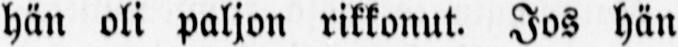hän oli paljon rikkonut. Jos hän
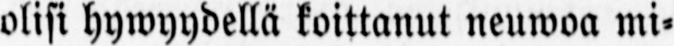olisi hywyydellä koittanut neuwoa mi-
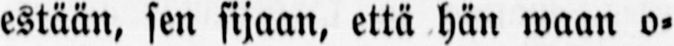estään, sen sijaan, että hän waan o-
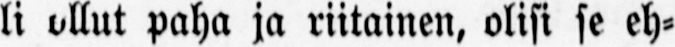li ollut paha ja riitainen, olisi se eh-
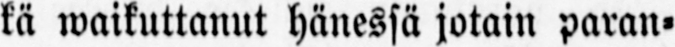kä waikuttanut hänessä jotain paran-
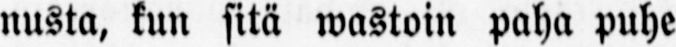nusta, kun sitä wastoin paha puhe
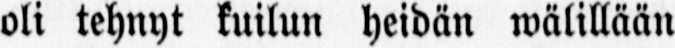oli tehnyt kuilun heidän wälillään
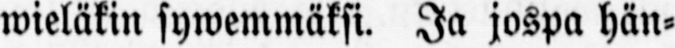wieläkin sywemmäksi. Ja jospa hän-
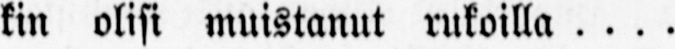kin olisi muistanut rukoilla ....
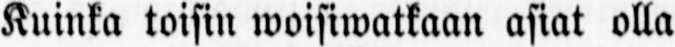Kuinka toisin woisiwatkaan asiat olla
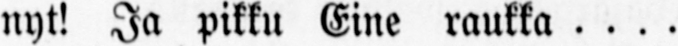nyt! Ja pikku Eine raukka ....
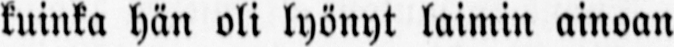kuinka hän oli lyönyt laimin ainoan
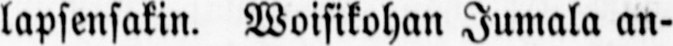lapsensakin. Woisikohan Jumala an-
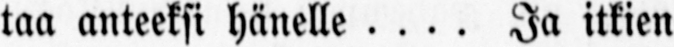taa anteeksi hänelle.... Ja itkien
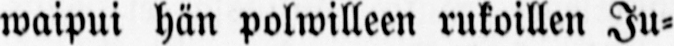waipui hän polwilleen rukoillen Ju-
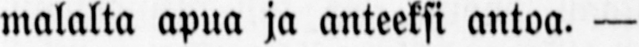malalta apua ja anteeksi antoa. —
